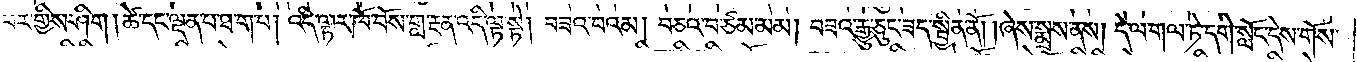པར་གྱིས་ཤིག །ཚེ་དང་ལྡན་པ་ཐ་ག་པ། འདི་ལྟར་ཁོ་བོས་གླ་རྔན་འདི་ལྟ་སྟེ། བཟའ་བའམ། བཅའ་བ་ཙམ་མམ། བཟའ་རྒྱུ་ཅུང་ཟད་སྦྱིན་ནོ། །ཞེས་སྨྲས་ནས། དེ་ལ་གལ་ཏེ་དགེ་སློང་དེས་གོས་
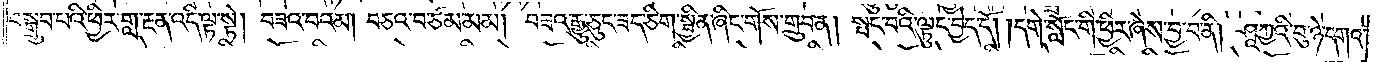བསྒྲུབ་པའི་ཕྱིར་གླ་རྔན་འདི་ལྟ་སྟེ། བཟའ་བའམ། བཅའ་བ་ཙམ་མམ། བཟའ་རྒྱུ་ཅུང་ཟད་ཅིག་སྦྱིན་ཞིག་གོས་གྲུབ་ན། སྤང་བའི་ལྟུང་བྱེད་དོ། །དགེ་སློང་གི་ཕྱིར་ཞེས་བྱ་བ་ནི། ཤཱཀྱའི་བུ་ཉེ་དགའ་
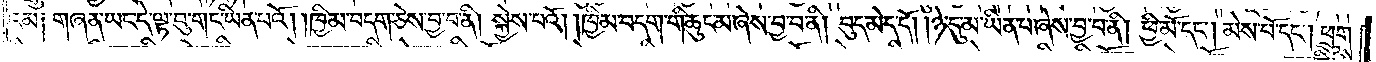འམ༑ གཞན་ཡང་དེ་ལྟ་བུ་གང་ཡིན་པའོ། །ཁྱིམ་བདག་ཅེས་བྱ་བ་ནི། སྐྱེས་པའོ། །ཁྱིམ་བདག་གི་ཆུང་མ་ཞེས་བྱ་བ་ནི། བུད་མེད་དོ། །ཉེ་དུ་མ་ཡིན་པ་ཞེས་བྱ་བ་ནི། ཕྱི་མོ་དང༌། མེས་པོ་དང༌། ཕྲུགས་
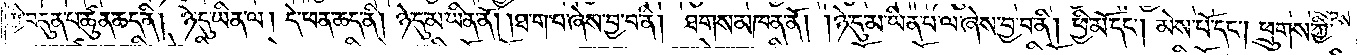ཀྱི་བདུན་པ་ཚུན་ཆད་ནི། ཉེ་དུ་ཡིན་ལ། དེ་ཕན་ཆད་ནི། ཉེ་དུ་མ་ཡིན་ནོ། །ཐ་ག་པ་ཞེས་བྱ་བ་ནི། ཐགས་མཁན་ནོ། །ཉེ་དུ་མ་ཡིན་པ་ལ་ཞེས་བྱ་བ་ནི། ཕྱི་མོ་དང༌། མེས་པོ་དང༌། ཕྲུགས་ཀྱི་
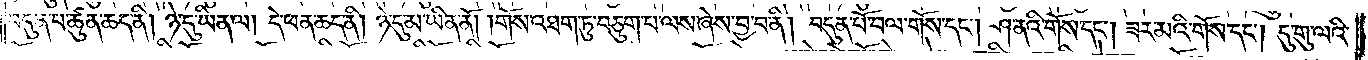བདུན་པ་ཚུན་ཆད་ནི། ཉེ་དུ་ཡིན་ལ། དེ་ཕན་ཆད་ནི། ཉེ་དུ་མ་ཡིན་ནོ། །གོས་འཐག་ཏུ་བཅུག་པ་ལས་ཞེས་བྱ་བ་ནི། བདུན་པོ་བལ་གོས་དང༌། ཤ་ནའི་གོས་དང༌། ཟར་མའི་གོས་དང༌། དུ་གུ་ལའི་
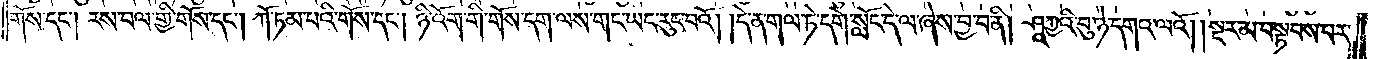གོས་དང༌། རས་བལ་གྱི་གོས་དང༌། ཀོ་ཏམ་པའི་གོས་དང༌། ཉི་འོག་གི་གོས་དག་ལས་གང་ཡང་རུང་བའོ། །དེ་ན་གལ་ཏེ་དགེ་སློང་དེ་ལ་ཞེས་བྱ་བ་ནི། ཤཱཀྱའི་བུ་ཉེ་དགའ་ལའོ། །སྔར་མ་བསྟབས་པར་
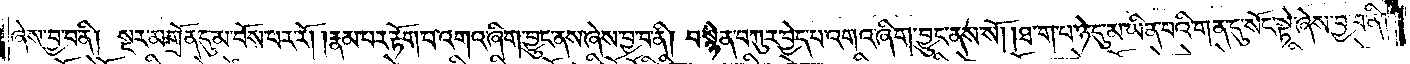ཞེས་བྱ་བ་ནི། སྔར་མགྲོན་དུ་མ་བོས་པར་རོ། །རྣམ་པར་རྟོག་པ་འགའ་ཞིག་བྱུང་ནས་ཞེས་བྱ་བ་ནི། བསྙེན་བཀུར་བྱེད་པ་འགའ་ཞིག་བྱུང་ནས་སོ། །ཐ་ག་པ་ཉེ་དུ་མ་ཡིན་པའི་གན་དུ་སོང་སྟེ་ཞེས་བྱ་བ་ནི།
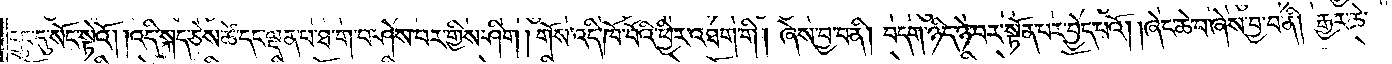དྲུང་དུ་སོང་སྟེའོ། །འདི་སྐད་ཅེས་ཚེ་དང་ལྡན་པ་ཐ་ག་པ་ཤེས་པར་གྱིས་ཤིག །གོས་འདི་ཁོ་བོའི་ཕྱིར་འཐག་གི །ཞེས་བྱ་བ་ནི། བདག་ཉིད་ཉེ་བར་སྟོན་པར་བྱེད་པའོ། །ཞེས་ཆེ་བ་ཞེས་བྱ་བ་ནི། རྒྱར་ཆེ་
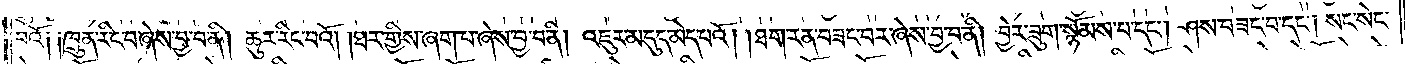བའོ༑ ༑ཁྲུན་རིང་བ་ཞེས་བྱ་བ་ནི། ཆུར་རིང་བའོ། །ཐར་གྱིས་ཞག་པ་ཞེས་བྱ་བ་ནི། འཇུར་མདུད་མེད་པའོ། །ཐག་རན་བཟང་བར་ཞེས་བྱ་བ་ནི། བྱེར་ཟུག་སྙོམས་པ་དང༌། ཤས་བཟང་བ་དང༌། སང་སེང་
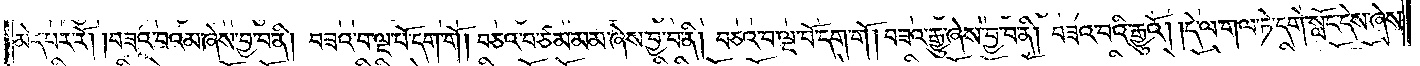མེད་པར་རོ། །བཟའ་བའམ་ཞེས་བྱ་བ་ནི། བཟའ་བ་ལྔ་པོ་དག་གོ། བཅའ་བ་ཙམ་མམ་ཞེས་བྱ་བ་ནི། བཅའ་བ་ལྔ་པོ་དག་གོ། བཟའ་རྒྱུ་ཞེས་བྱ་བ་ནི། བཟའ་བའི་རྒྱུའོ། །དེ་ལ་གལ་ཏེ་དགེ་སློང་དེས་ཞེས་
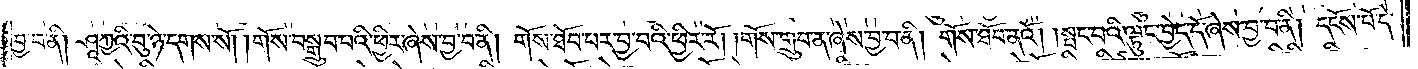བྱ་བ་ནི། ཤཱཀྱའི་བུ་ཉེ་དགས་སོ། །གོས་བསྒྲུབ་པའི་ཕྱིར་ཞེས་བྱ་བ་ནི། གོས་ཐོབ་པར་བྱ་བའི་ཕྱིར་རོ། །གོས་གྲུབ་ན་ཞེས་བྱ་བ་ནི། གོས་ཐོབ་ནའོ། །སྤང་བའི་ལྟུང་བྱེད་དོ་ཞེས་བྱ་བ་ནི། དངོས་པོ་དེ་
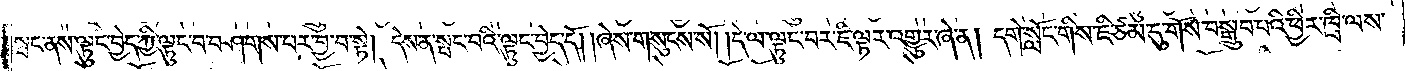སྤང་ནས་ལྟུང་བྱེད་ཀྱི་ལྟུང་བ་བཤགས་པར་བྱ་བ་སྟེ། དེས་ན་སྤང་བའི་ལྟུང་བྱེད་དོ། །ཞེས་གསུངས་སོ། །དེ་ལ་ལྟུང་བར་ཇི་ལྟར་འགྱུར་ཞེ་ན། དགེ་སློང་གིས་ཇི་ཙམ་དུ་གོས་བསྒྲུབ་པའི་ཕྱིར་ཁྲི་ལས་
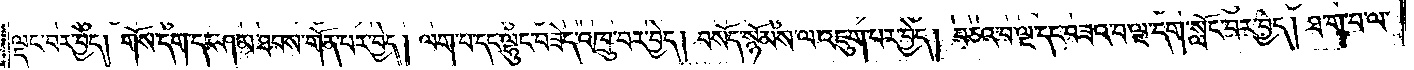ལྡང་བར་བྱེད། གོས་དག་དང་ཤམ་ཐབས་གོན་པར་བྱེད། ལག་པ་དང་ལྷུང་བཟེད་འཁྲུ་བར་བྱེད། བསོད་སྙོམས་ལ་འཇུག་པར་བྱེད། བཅའ་བ་ལྔ་དང་བཟའ་བ་ལྔ་དག་སློང་བར་བྱེད། ཐ་ག་པ་ལ་
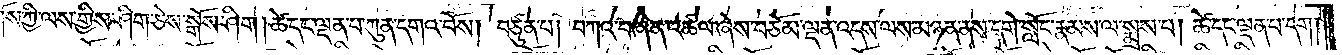ཆོས་གོས་ཀྱི་ལས་ཀྱིས་ཤིག་ཅེས་སྒོས་ཤིག །ཚེ་དང་ལྡན་པ་ཀུན་དགའ་བོས། བཙུན་པ། བཀའ་བཞིན་འཚལ་ཞེས་བཅོམ་ལྡན་འདས་ལས་མཉན་ནས་དགེ་སློང་རྣམས་ལ་སྨྲས་པ། ཚེ་དང་ལྡན་པ་དག།
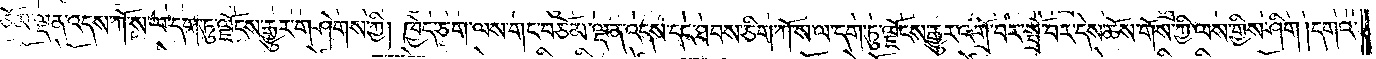ཅོམ་ལྡན་འདས་ཀོ་ས་ལ་དག་ཏུ་ལྗོངས་རྒྱུར་གཤེགས་ཀྱི། ཁྱེད་ཅག་ལས་གང་བཅོམ་ལྡན་འདས་དང་ཐབས་ཅིག་ཀོ་ས་ལ་དག་ཏུ་ལྗོངས་རྒྱུར་འགྲོ་བར་སྤྲོ་བར་དེས་ཆོས་གོས་ཀྱི་ལས་གྱིས་ཤིག །དགའ་
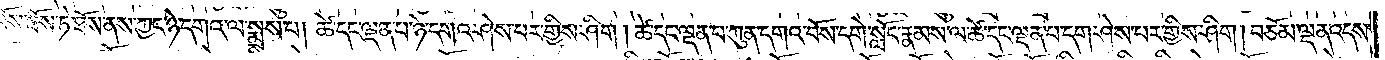བོས་ཐོས་ཏེ་ཐོས་ནས་ཀྱང་ཉེ་དགའ་ལ་སྨྲས་པ། ཚེ་དང་ལྡན་པ་ཉེ་དགའ་ཤེས་པར་གྱིས་ཤིག །ཚེ་དང་ལྡན་པ་ཀུན་དགའ་བོས་དགེ་སློང་རྣམས་ལ་ཚེ་དང་ལྡན་པ་དག་ཤེས་པར་གྱིས་ཤིག །བཅོམ་ལྡན་འདས་
